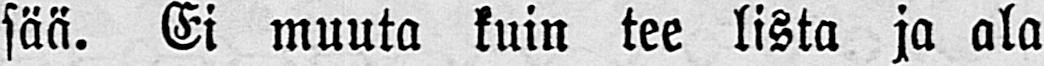sää. Ei muuta kuin tee lista ja ala
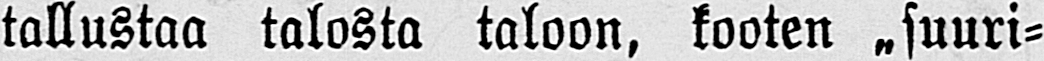tallustaa talosta taloon, kooten „suuri-
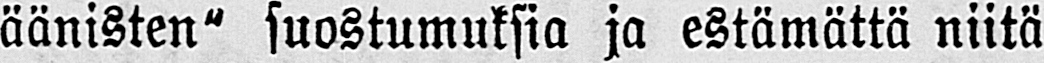äänisten" suostumuksia ja estämättä niitä
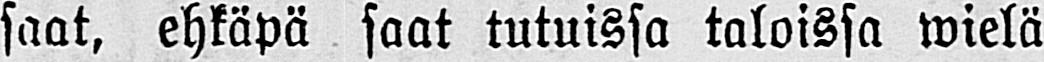saat, ehkäpä saat tutuissa taloissa wielä
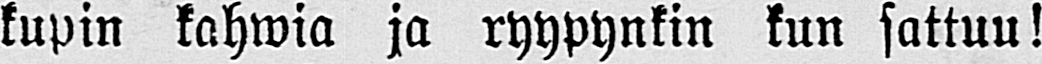kupin kahwia ja ryypynkin kun sattuu!
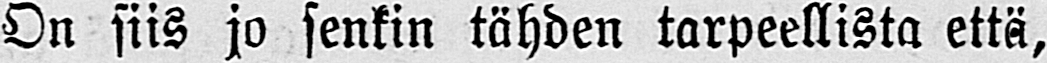On siis jo senkin tähden tarpeellista että,
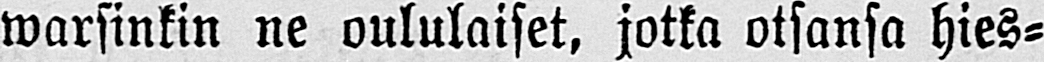warsinkin ne oululaiset, jotka otsansa hies-
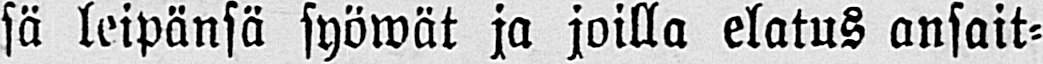sä leipänsä syöwät ja joilla elatus ansait-
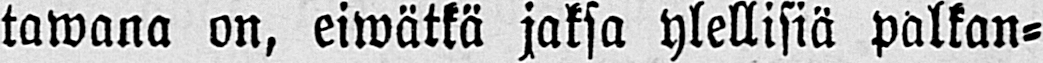tawana on, eiwätkä jaksa ylellisiä palkan-
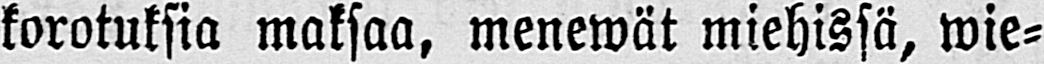korotuksia maksaa, menewät miehissä, wie-
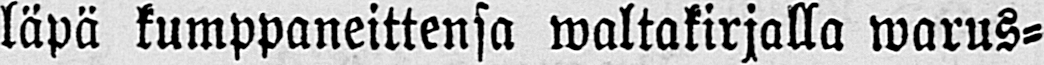läpä kumppaneittensa waltakirjalla warus-
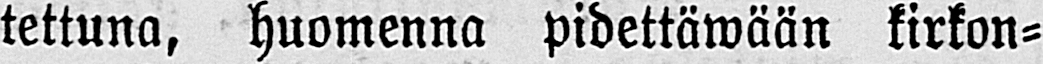tettuna, huomenna pidettäwään kirkon-
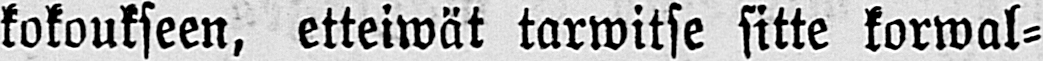kokoukseen, etteiwät tarwitse sitte korwal-
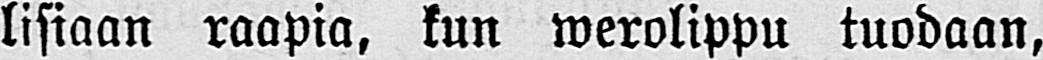lisiaan raapia, kun werolippu tuodaan,
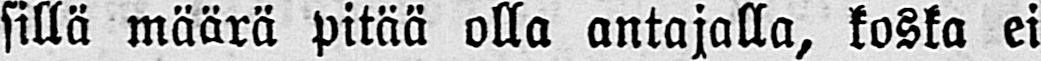sillä määrä pitää olla antajalla, koska ei
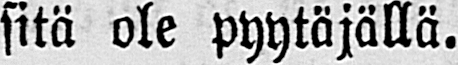sitä ole pyytäjällä.
